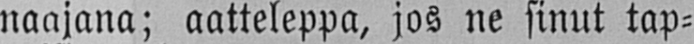naajana; aatteleppa, jos ne sinut tap-
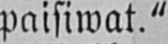paisiwat."
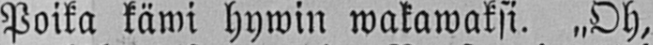Poika käwi hywin wakawaksi. „Oh,
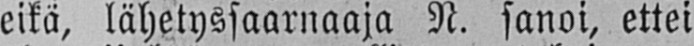eikä, lähetyssaarnaaja N. sanoi, ettei
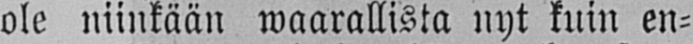ole niinkään waarallista nyt kuin en-
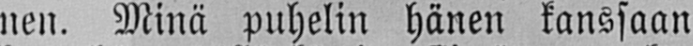nen. Minä puhelin hänen kanssaan
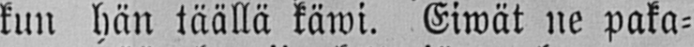kun hän täällä käwi. Eiwät ne paka-
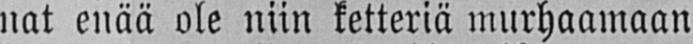nat enää ole niin ketteriä murhaamaan
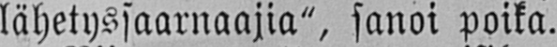lähetyssaarnaajia", sanoi poika.
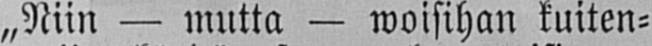„Niin — mutta — woisihan kuiten-
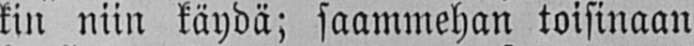kin niin käydä; saammehan toisinaan
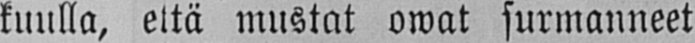kuulla, että mustat owat surmanneet
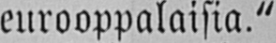eurooppalaisia."
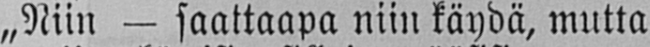„Niin — saattaapa niin käydä, mutta
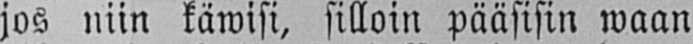jos niin käwisi, silloin pääsisin waan
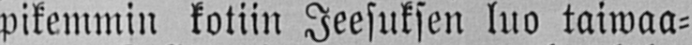pikemmin kotiin Jeesuksen luo taiwaa-
